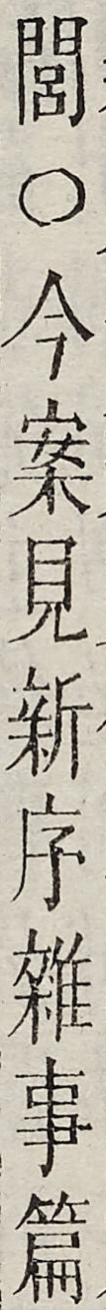閭○今案見新序雜事篇
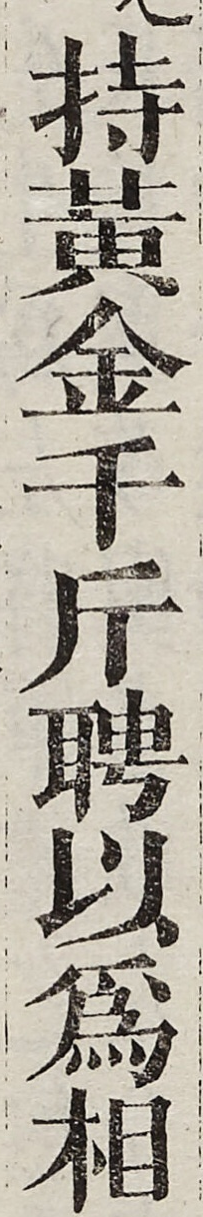持黃金千斤聘以為相
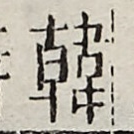韓
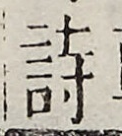詩
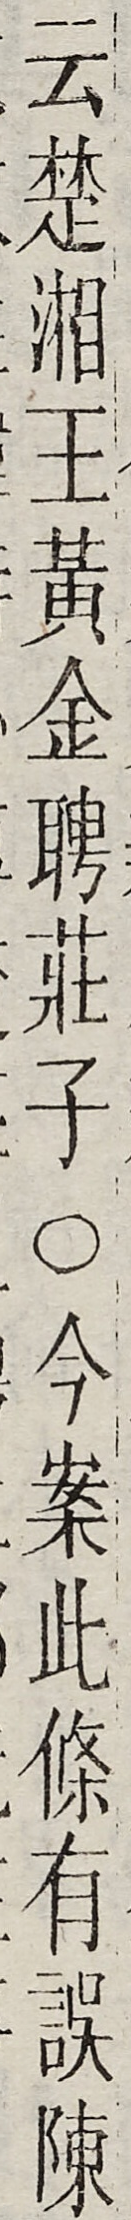云楚湘王黃金聘莊子○今案此條有誤陳
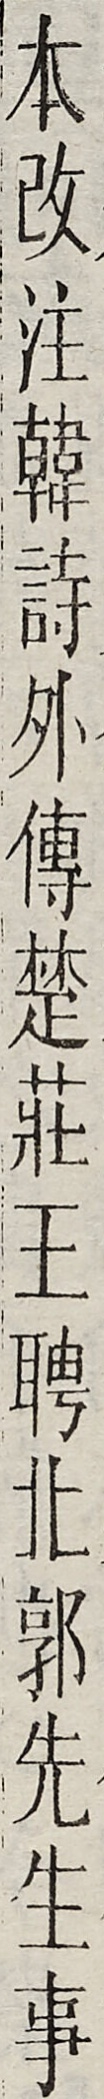本改注韓詩外傳楚莊王聘北郭先生事
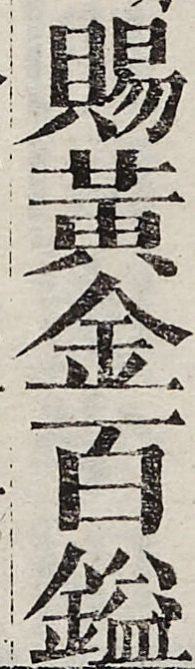賜黃金百鎰
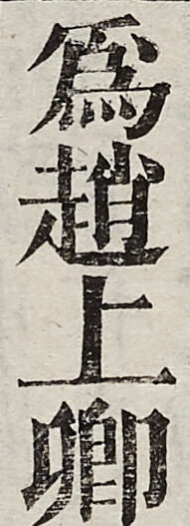為趙上卿
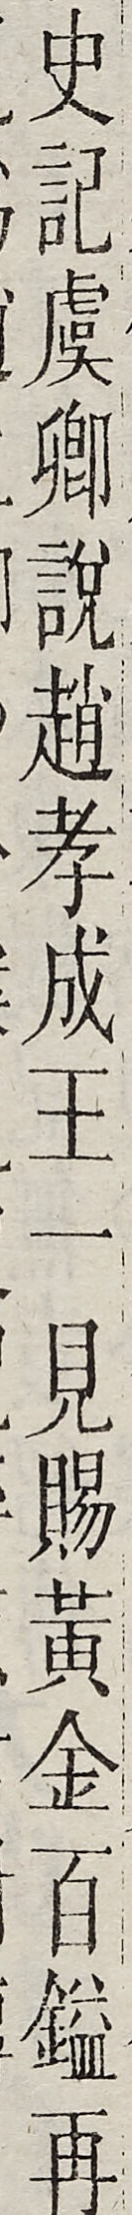史記虞卿說趙孝成王一見賜黃金百鎰再
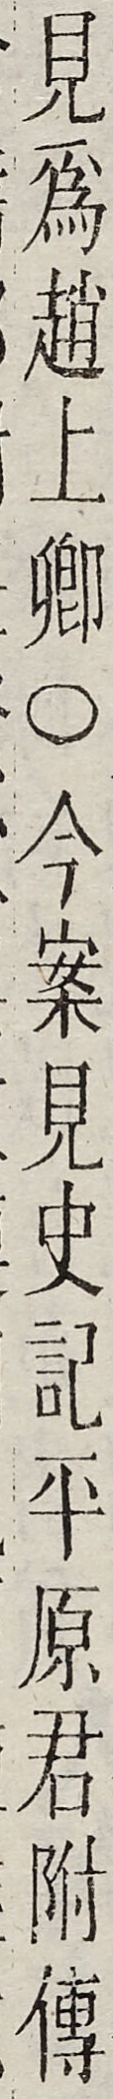見為趙上卿○今案見史記平原君附傳
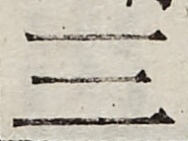三
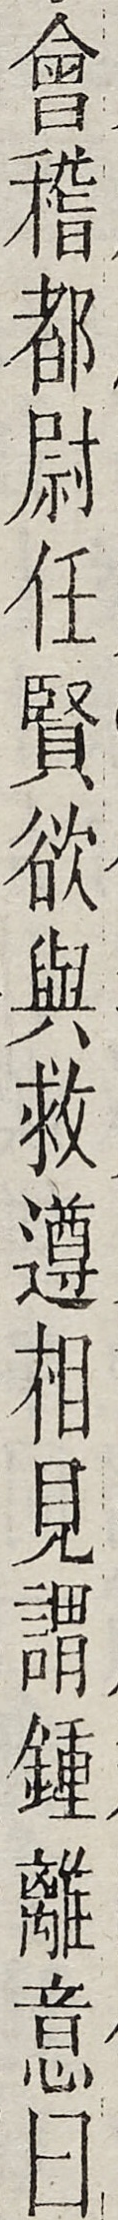會稽都尉任賢欲與救遵相見謂鍾離意曰
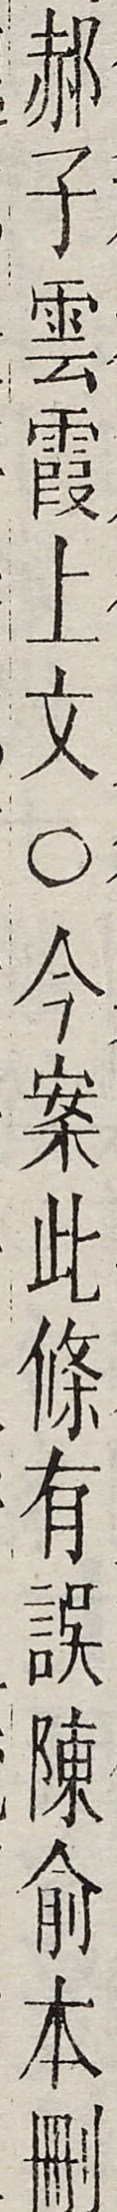郝子雲霞上文○今案此條有誤陳俞本刪
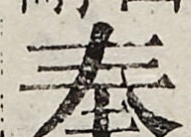奉
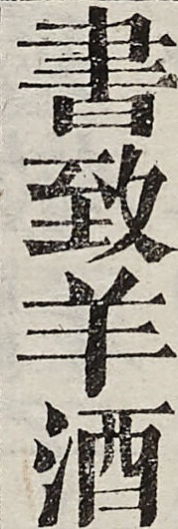書致羊酒
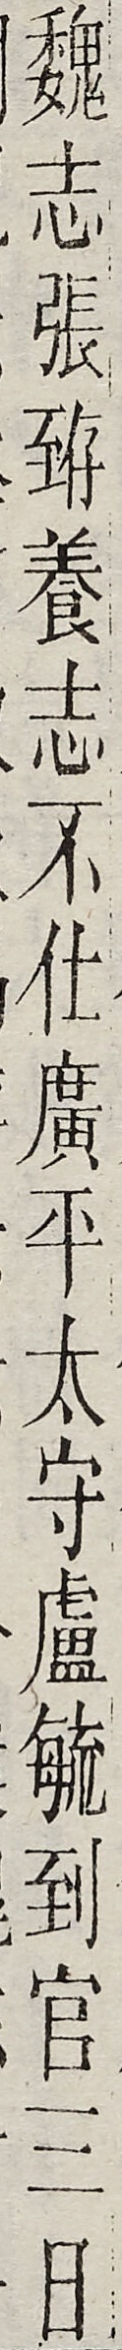魏志張□養志不仕廣平太守盧毓到官三日
